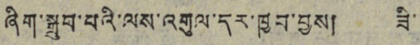ཞིག་སྒྲུབ་པའི་ལས་འགུལ་དར་ཁྱབ་བྱས། ཟི་
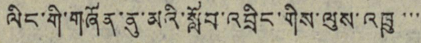ལིང་གི་གཞོན་ནུ་མའི་སློབ་འབྲིང་གིས་ལུས་འཁུ་་་་
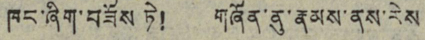ཁང་ཞིག་བཟོས ཏེ། གཞོན་ནུ་རྣམས་ནས་རེས་
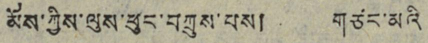མོས་ཀྱིས་ལུས་ཕུང་བཀྲུས་པས། གཙང་མའི་
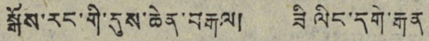སྒོས་རང་གི་དུས་ཆེན་བརྒལ། ཟི ལིང་དགེ་རྒན
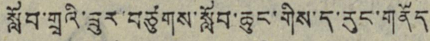སློབ་གྲྭའི་ཟུར་བཙུགས་སློབ་ཆུང་གིས་ད་རུང་གནོད
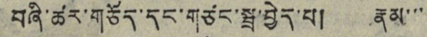བཞི་ཚར་གཅོད་དང་གཙང་སྦྲ་བྱེད་པ། རྣམ་་་
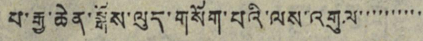པ་རྒྱ་ཆེན་སྒོས་ལུད་གསོག་པའི་ལས་འགུལ་་་་་་་་་་
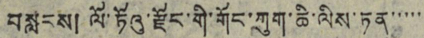བསླངས། ལོ་ཏོའུ་རྫོང་གི་གོང་ཀུག་ཆི་ལིས་ཏན་་་་་
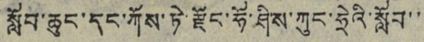སློབ་ཆུང་དང་ཀོས་ཏེ་རྫོང་ཧོ་ཤིས་ཀུང་ཧྲེའི་སློབ་་
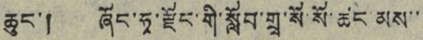ཆུང་། ཞོང་ཧྭ་རྫོང་གི་སློབ་གྲྭ་སོ་སོ་ཚང་མས་་
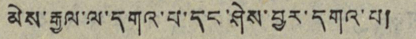མེས་རྒྱལ་ལ་དགའ་པ་དང་ཤེས་བྱར་དགའ་པ།
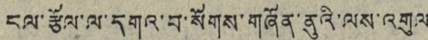ངལ་རྩོལ་ལ་དགའ་བ་སོགས་གཞོན་ནུའི་ལས་འགུལ
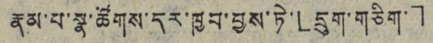རྣམ་པ་སྣ་ཚོགས་དར་ཁྱབ་བྱས་ཏེ་「དྲུག་གཅིག་」
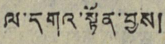ལ་དགའ་སྟོན་བྱས།
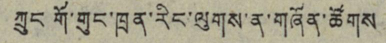ཀྲུང གོ་གུང་ཁྲན་རིང་ལུགས་ན་གཞོན་ཚོགས
